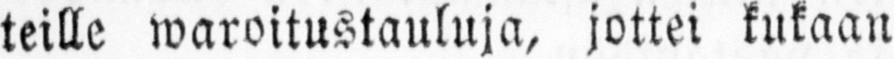teille waroitustauluja, jottei kukaan
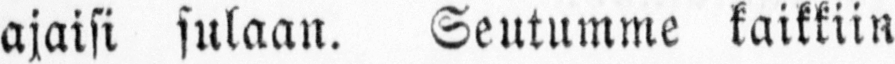ajaisi sulaan. Seutumme kaikkiin
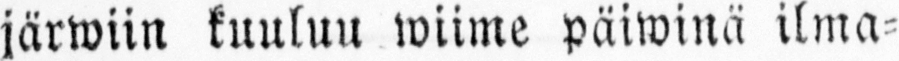järwiin kuuluu wiime päiwinä ilma-
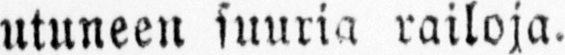utuneen suuria railoja.
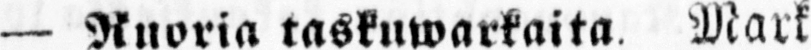— Ruoria taskuwarkaita. Mark-
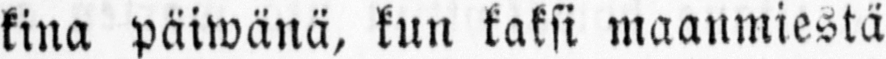kina päiwänä, kun kaksi maanmiestä
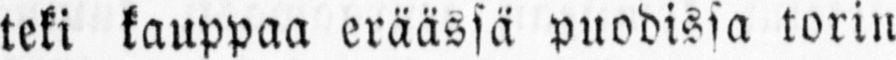teki kauppaa eräässä puodissa torin
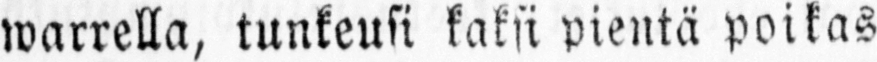warrella, tunkeusi kaksi pientä poikas
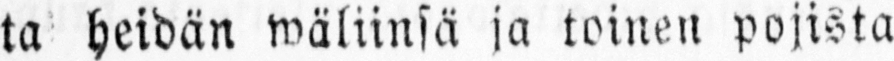ta heidän wäliinsä ja toinen pojista
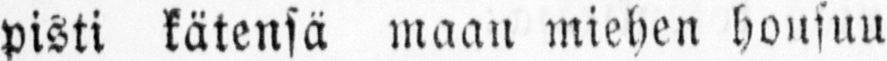pisti kätensä maan miehen housuu
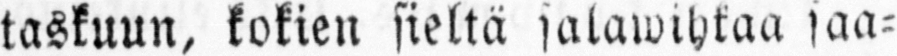taskuun, kokien sieltä salawihkaa saa-
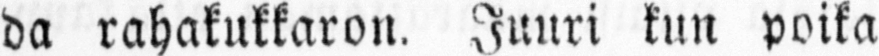da rahakukkaron. Juuri kun poika-
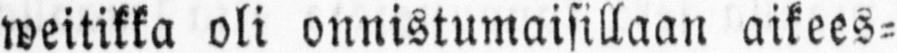weitikka oli onnistumaisillaan aikees-
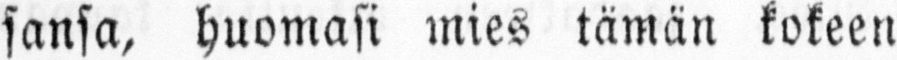sansa, huomasi mies tämän kokeen
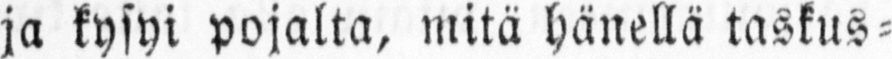ja kysyi pojalta, mitä hänellä taskus-
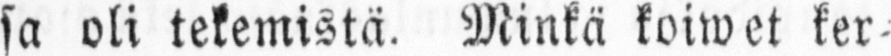sa oli tekemistä. Minkä koiwet ker-
